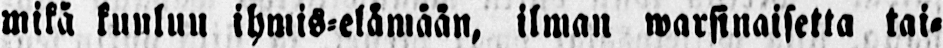mikä kuuluu ihmis-elämään, ilman warsinaisetta tai-
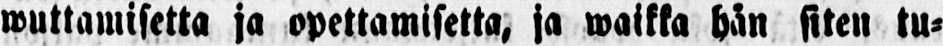wuttamisetta ja opettamisetta, ja waikka hän siten tu-
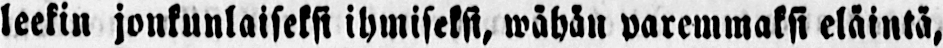leekin jonkunlaiseksi ihmiseksi, wähän paremmaksi eläintä,
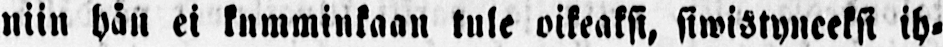niin hän ei kumminkaan tule oikeaksi, siwistyneeksi ih-
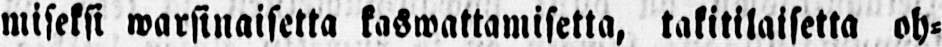miseksi warsinaisetta kaswattamisetta, takitilaisetta oh-
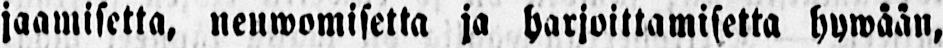jaamisetta, neuwomisetta ja harjoittamisetta hywään,
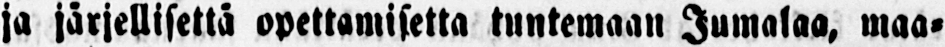ja järjellisettä opettamisetta tuntemaan Jumalaa, maa-
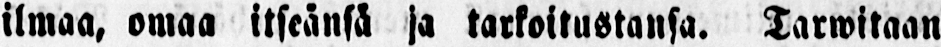ilmaa, omaa itseänsä ja tarkoitustansa. Tarwitaan
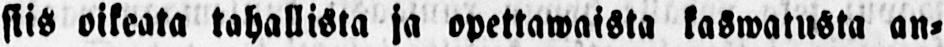siis oikeata tahallista ja opettawaista kaswatusta an-
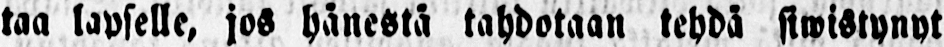taa lapselle, jos hänestä tahdotaan tehdä siwistynyt
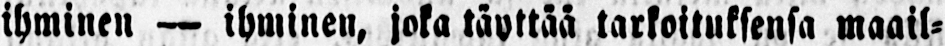ihminen — ihminen, joka täyttää tarkoituksensa maail-
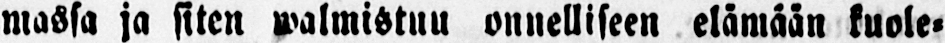massa ja siten walmistuu onnelliseen elämään kuole-
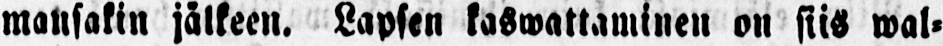mansakin jälkeen. Lapsen kaswattaminen on siis wal-
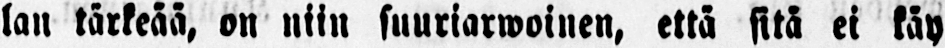lan tärkeää, on niin suuriarwoinen, että sitä ei käy
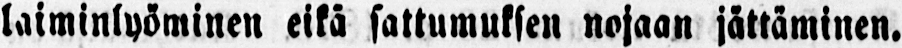laiminlyöminen eikä sattumuksen nojaan jättäminen.
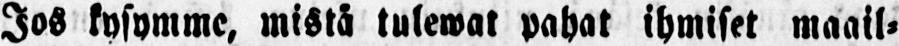Jos kysymme, mistä tulewat pahat ihmiset maail-
